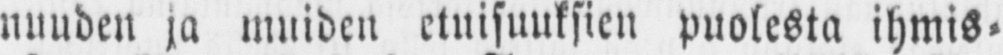nuuden ja muiden etuisuuksien puolesta ihmis-
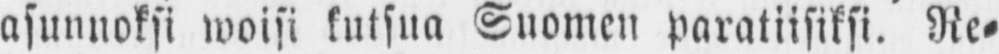asunnoksi woisi kutsua Suomen paratiisiksi. Re-
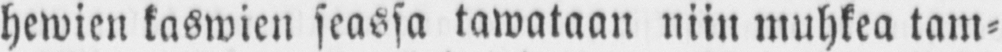hewien kaswien seassa tawataan niin muhkea tam-
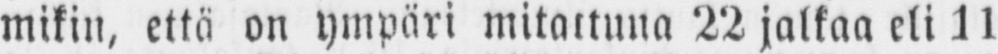mikin, että on ympäri mitattuna 22 jalkaa eli 11
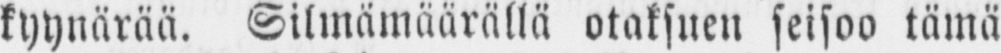kyynärää. Silmämäärällä otaksuen seisoo tämä
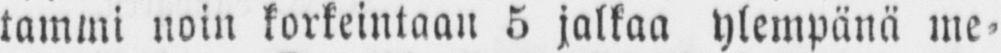tammi noin korkeintaan 5 jalkaa ylempänä me-
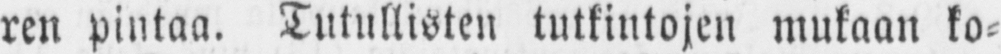ren pintaa. Tutullisten tutkintojen mukaan ko-
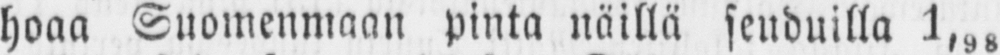hoaa Suomenmaan pinta näillä seuduilla 1,98
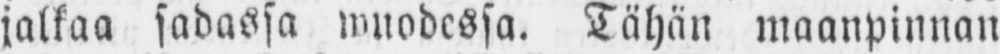jalkaa sadassa wuodessa. Tähän maanpinnan
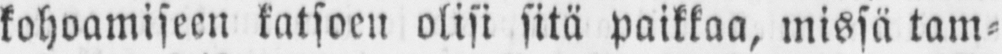kohoamiseen katsoen olisi sitä paikkaa, missä tam-
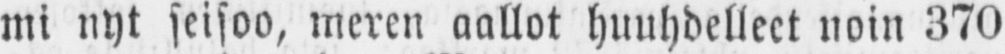mi nyt seisoo, meren aallot huuhdelleet noin 370
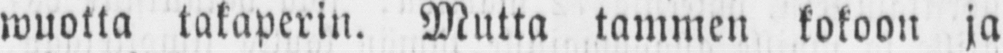wuotta takaperin. Mutta tammen kokoon ja
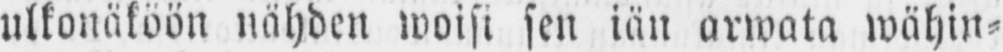ulkonäköön nähden woisi sen iän arwata wähin-
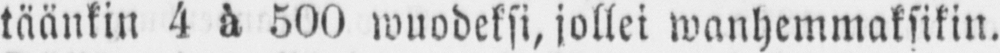täänkin 4 à 500 wuodeksi, jollei wanhemmaksikin.
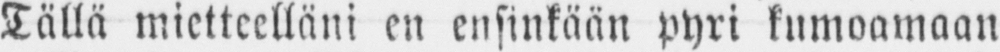Tällä mietteelläni en ensinkään pyri kumoamaan
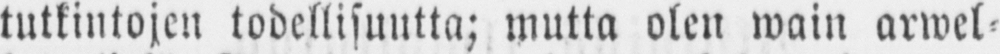tutkintojen todellisuutta; mutta olen wain arwel-
